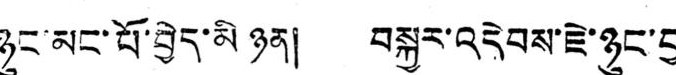ཉུང་མང་པོ་བྱེད་མི ཉན། བསྐྱར་འདེབས་ཇེ་ཉུང་བྱ
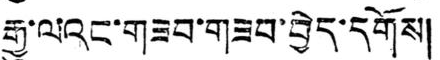རྒྱུ་ལའང་གཟབ་གཟབ་བྱེད་དགོས།
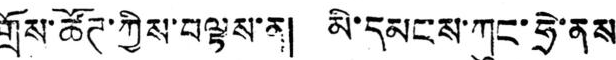གྲོས་ཚོཊ་ཀྱིས་བལྟས་ན། མི་དམངས་ཀུང་ཧྲེ་ནས
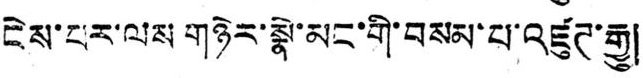ངེས་པར་ལས གཉེར་སྣེ་མང་གི་བསམ་པ་འཛུཊ་རྒྱུ།
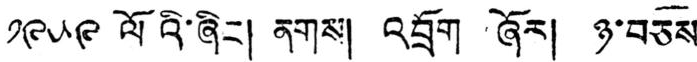༡༩༥༩ ལོའི་ཞིང། ནགས། འབྲོག ཞོར། ཉ་བཅས
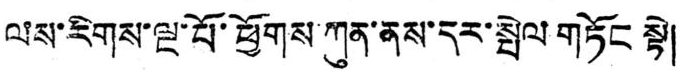ལས་རིགས་ལྔ་པོ་ཕྱོགས་ཀུན་ནས་དར་སྤེལ གཏོང སྟེ།
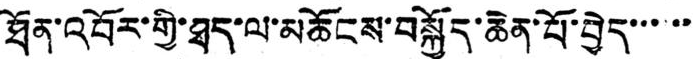ཐོན་འབོར་གྱི་ཐད་ལ་མཆོངས་བསྐྱོད་ཆེན་པོ་བྱེད་་་་་་
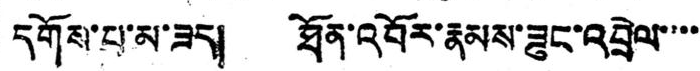དགོས་པ་མ་ཟད། ཐོན་འབོར་རྣམས་ཟུང་འབྲེལ་་་་
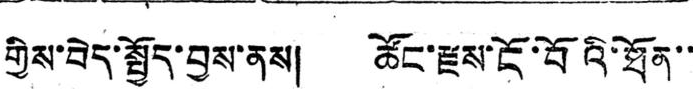གྱིས་བེད་སྤྱོད་བྱས་ནས། ཚོང་རྫས་ངོ་བོའི་ཐོན་་
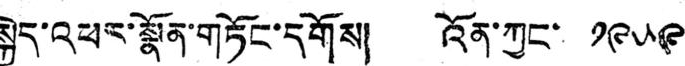སྐྱེད་འཕར་སྣོན་གཏོང་དགོས། འོན་ཀྱང་ ༡༩༥༩
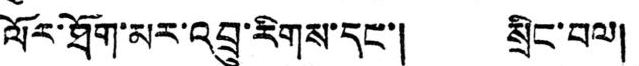ལོར་ཐོག་མར་འབྲུ་རིགས་དང་། སྲིང་བལ།
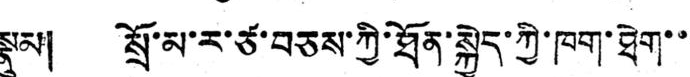སྣུམ། སྲོ་མ་ར་ཙ་བཅས་ཀྱི་ཐོན་སྐྱེད་ཀྱི་ཁག་ཐེག་་
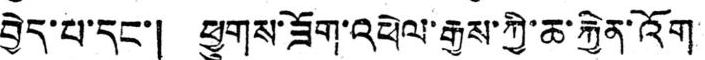བྱེད་པ་དང་། ཕྱུགས་ཟོག་འཕེལ་རྒྱས་ཀྱི་ཆ་རྐྱེན་འོག
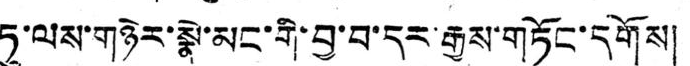ཏུ་ལས་གཉེར་སྣེ་མང་གི་བྱ་བ་དར་རྒྱས་གཏོང་དགོས།
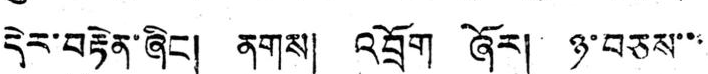དེར་བརྟེན་ཞིང། ནགས། འབྲོག ཞོར། ཉ་བཅས་་
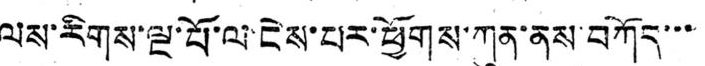ལས་རིགས་ལྔ་པོ་ལ་ངེས་པར་ཕྱོགས་ཀུན་ནས་བཀོད་་་
